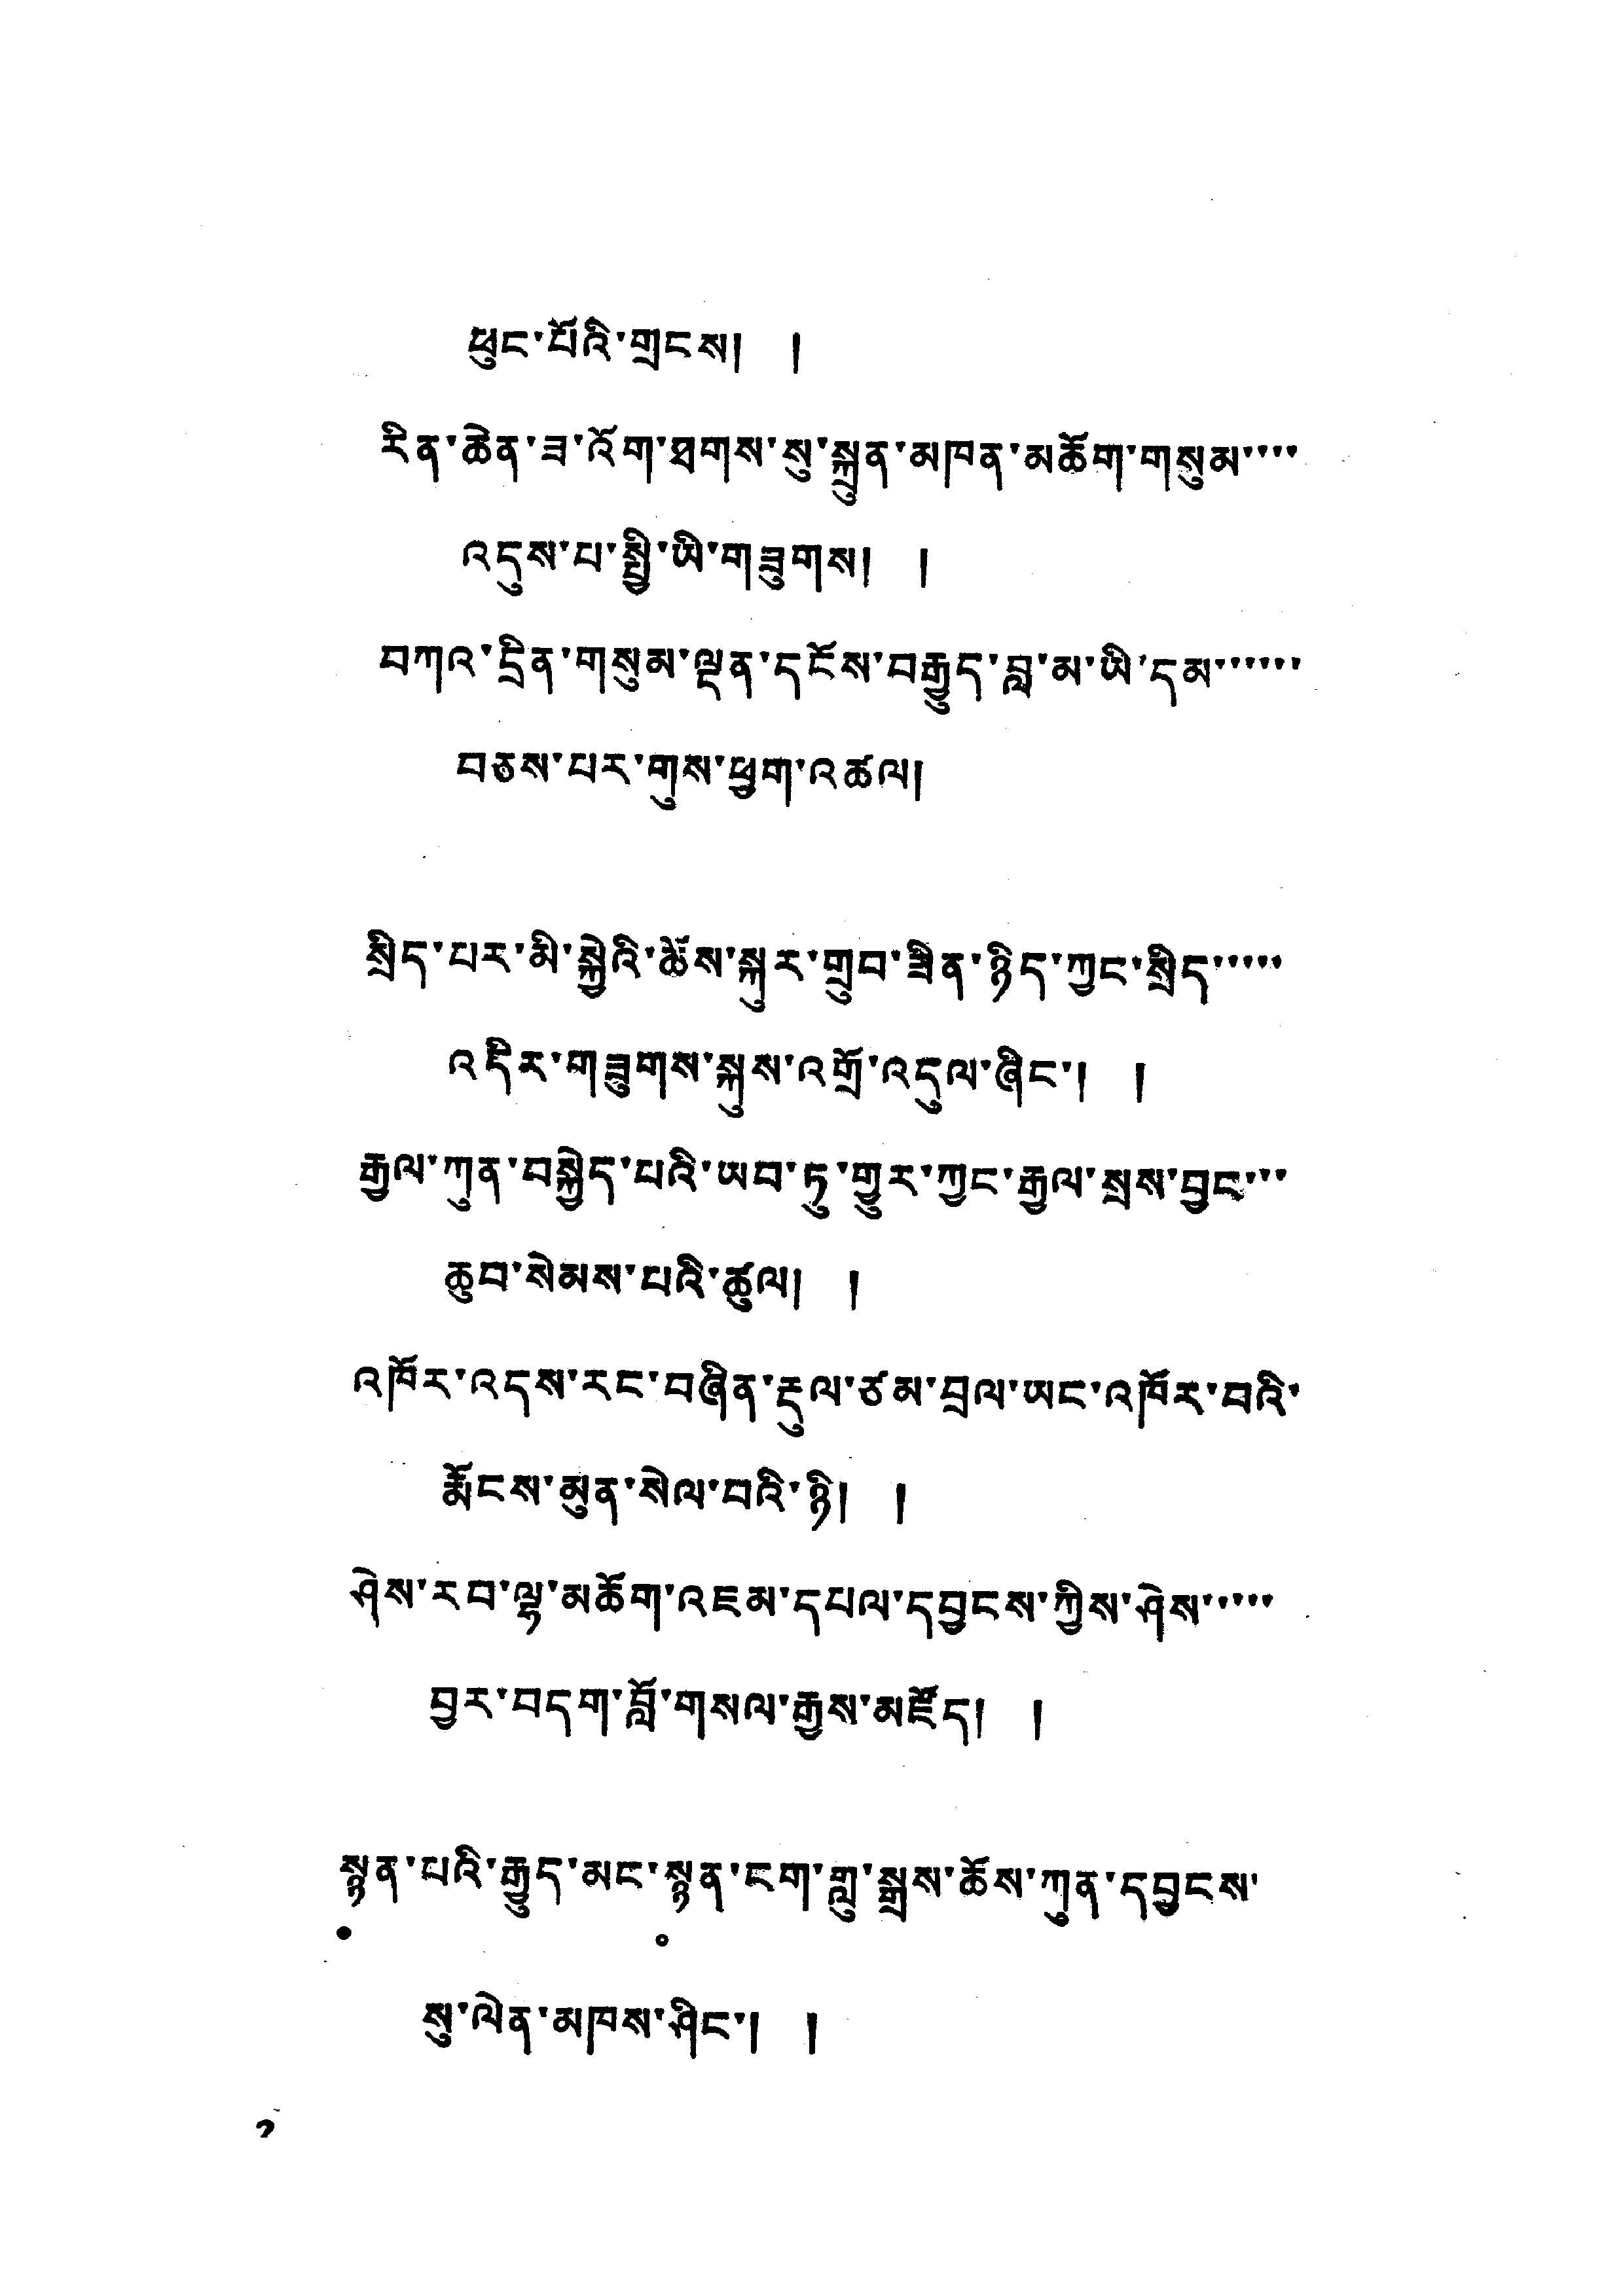ཕུང་པོའི་གྲངས། །
རིན་ཆེན་ཟ་འོག་ཐགས་སུ་སྐྲུན་མཁན་མཆོག་གསུམ་་་་
འདུས་པ་སྤྱི་ཡི་གཟུགས། །
བཀའ་དྲིན་གསུམ་ལྡན་དངོས་བརྒྱུད་བླ་མ་ཡི་དམ་་་་་་
བཅས་པར་གུས་ཕྱག་འཚལ།
སྲིད་པར་མི་སྐྱེའི་ཆོས་སྐུར་གྲུབ་ཟིན་ཉིད་ཀྱང་སྲིད་་་་་
འདིར་གཟུགས་སྐུས་འགྲོ་འདུལ་ཞིང་། །
རྒྱལ་ཀུན་བསྐྱེད་པའི་ཡབ་ཏུ་གྱུར་ཀྱང་རྒྱལ་སྲས་བྱང་་་
ཆུབ་སེམས་པའི་ཚུལ། །
འཁོར་འདས་རང་བཞིན་རྡུལ་ཙམ་བྲལ་ཡང་འཁོར་བའི་
རྨོངས་མུན་སེལ་བའི་ཉི། །
ཤེས་རབ་ལྷ་མཆོག་འཇམ་དཔལ་དབྱངས་ཀྱིས་ཤེས་་་་་
བྱར་བདག་བློ་གསལ་རྒྱས་མཛོད། །
སྙ༷ན་པའི་རྒྱུད་མང་སྙ༷ན་ངག་གླུ་སྒྲས་ཆོས་ཀུན་དབྱངས་
སུ་ལེན་མཁས་ཤིང་། །
2
